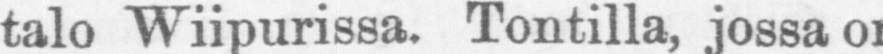talo Wiipurissa. Tontilla, jossa on
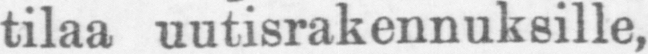tilaa uutisrakennuksille, on kaksi
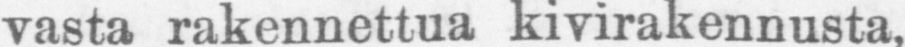vasta rakennettua kivirakennusta,
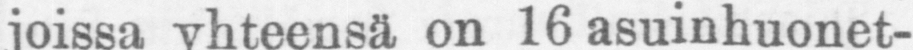joissa yhteensä on 16 asuinhuonet-
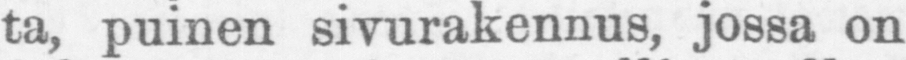ta, puinen sivurakennus, jossa on
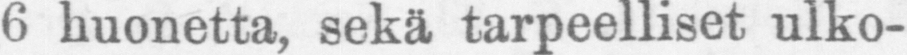6 huonetta, sekä tarpeelliset ulko-
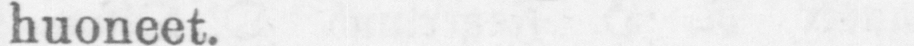huoneet.
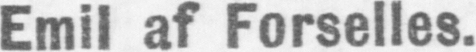Emil af Forselles.
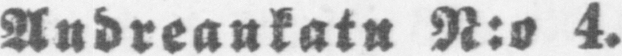Andreankatu N:o 4.
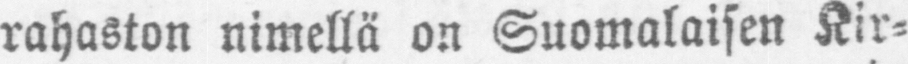rahaston nimellä on Suomalaisen Kir-
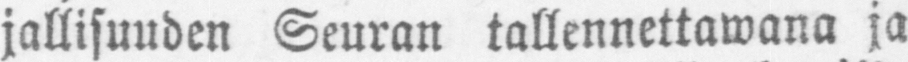jallisuuden Seuran tallennettawana ja
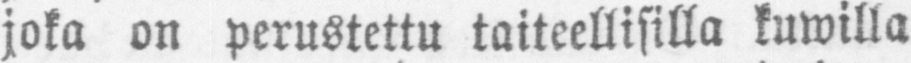joka on perustettu taiteellisilla kuwilla
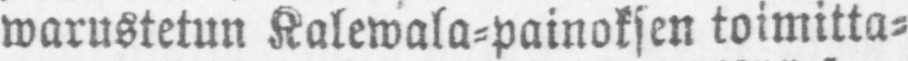warustetun Kalewala-painoksen toimitta-
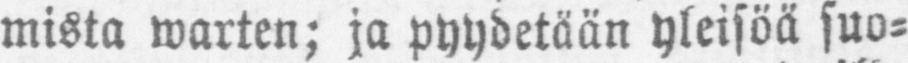mista warten; ja pyydetään yleisöä suo-
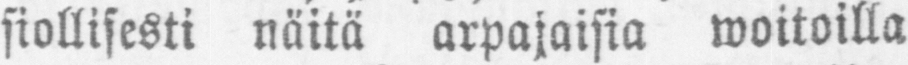siollisesti näitä arpajaisia woitoilla
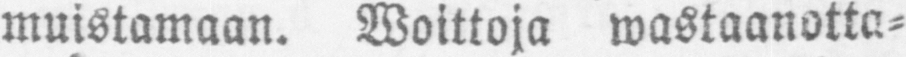muistamaan. Woittoja wastaanotta-
